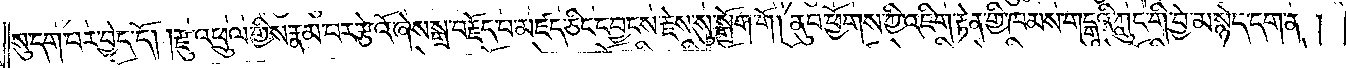སུ་དག་པར་བྱེད་དོ། །རྫུ་འཕྲུལ་གྱིས་རྣམ་པར་རྩེའོ་ཞེས་སྒྲ་བརྗོད་པ་མཛད་ཅིང་དབྱངས་རྗེས་སུ་སྒྲོག་གོ །ནུབ་ཕྱོགས་ཀྱི་འཇིག་རྟེན་གྱི་ཁམས་གངྒཱའི་ཀླུང་གི་བྱེ་མ་སྙེད་དག་ན།
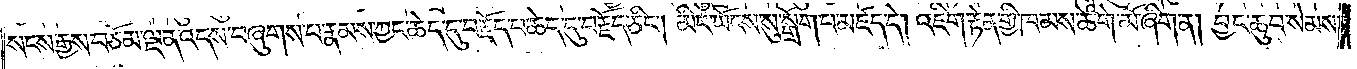སངས་རྒྱས་བཅོམ་ལྡན་འདས་བཞུགས་པ་རྣམས་ཀྱང་ཆེད་དུ་བརྗོད་པ་ཆེད་དུ་བརྗོད་ཅིང༌། མིང་ཡོངས་སུ་སྒྲོག་པ་མཛད་དེ། འཇིག་རྟེན་གྱི་ཁམས་ཆེ་གེ་མོ་ཞིག་ན། བྱང་ཆུབ་སེམས་
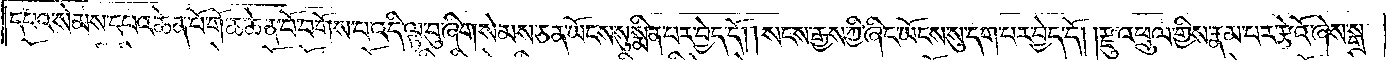དཔའ་སེམས་དཔའ་ཆེན་པོ་གོ་ཆ་ཆེན་པོ་བགོས་པ་འདི་ལྟ་བུ་ཞིག་སེམས་ཅན་ཡོངས་སུ་སྨིན་པར་བྱེད་དོ། །སངས་རྒྱས་ཀྱི་ཞིང་ཡོངས་སུ་དག་པར་བྱེད་དོ། །རྫུ་འཕྲུལ་གྱིས་རྣམ་པར་རྩེའོ་ཞེས་སྒྲ་
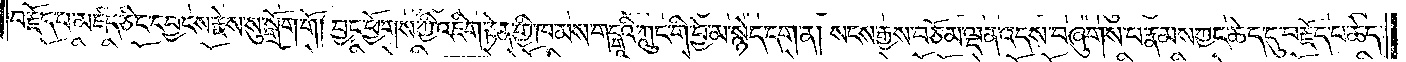བརྗོད་པ་མཛད་ཅིང་དབྱངས་རྗེས་སུ་སྒྲོག་གོ །བྱང་ཕྱོགས་ཀྱི་འཇིག་རྟེན་གྱི་ཁམས་གངྒཱའི་ཀླུང་གི་བྱེ་མ་སྙེད་དག་ན། སངས་རྒྱས་བཅོམ་ལྡན་འདས་བཞུགས་པ་རྣམས་ཀྱང་ཆེད་དུ་བརྗོད་པ་ཆེད་
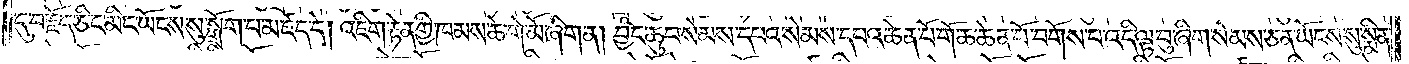དུ་བརྗོད་ཅིང་མིང་ཡོངས་སུ་སྒྲོག་པ་མཛད་དེ། འཇིག་རྟེན་གྱི་ཁམས་ཆེ་གེ་མོ་ཞིག་ན། བྱང་ཆུབ་སེམས་དཔའ་སེམས་དཔའ་ཆེན་པོ་གོ་ཆ་ཆེན་པོ་བགོས་པ་འདི་ལྟ་བུ་ཞིག་སེམས་ཅན་ཡོངས་སུ་སྨིན་
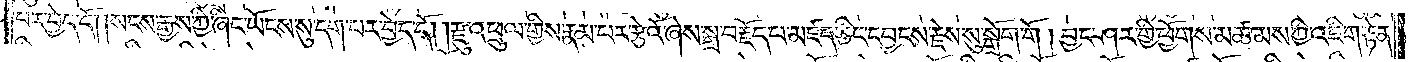པར་བྱེད་དོ། །སངས་རྒྱས་ཀྱི་ཞིང་ཡོངས་སུ་དག་པར་བྱེད་དོ། །རྫུ་འཕྲུལ་གྱིས་རྣམ་པར་རྩེའོ་ཞེས་སྒྲ་བརྗོད་པ་མཛད་ཅིང་དབྱངས་རྫེས་སུ་སྒྲོག་གོ །བྱང་ཤར་གྱི་ཕྱོགས་མཚམས་ཀྱི་འཇིག་རྟེན་
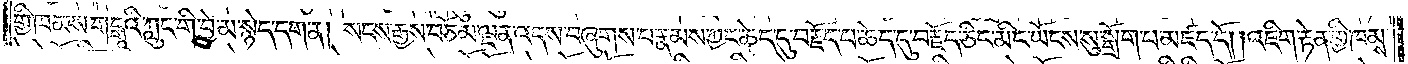གྱི་ཁམས་གངྒཱའི་ཀླུང་གི་བྱེ་མ་སྙེད་དག་ན། སངས་རྒྱས་བཅོམ་ལྡན་འདས་བཞུགས་པ་རྣམས་ཀྱང་ཆེད་དུ་བརྗོད་པ་ཆེད་དུ་བརྗོད་ཅིང་མིང་ཡོངས་སུ་སྒྲོག་པ་མཛད་དོ། །འཇིག་རྟེན་གྱི་ཁམས་
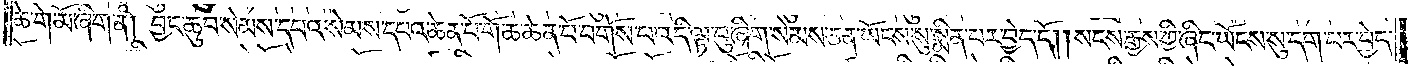ཆེ་གེ་མོ་ཞིག་ན། བྱང་ཆུབ་སེམས་དཔའ་སེམས་དཔའ་ཆེན་པོ་གོ་ཆ་ཆེན་པོ་བགོས་པ་འདི་ལྟ་བུ་ཞིག་སེམས་ཅན་ཡོངས་སུ་སྨིན་པར་བྱེད་དོ། །སངས་རྒྱས་ཀྱི་ཞིང་ཡོངས་སུ་དག་པར་བྱེད་
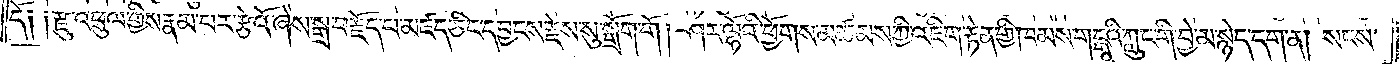དོ༑ ༑རྫུ་འཕྲུལ་གྱིས་རྣམ་པར་རྩེའོ་ཞེས་སྒྲ་བརྗོད་པ་མཛད་ཅིང་དབྱངས་རྗེས་སུ་སྒྲོག་གོ །ཤར་ལྷོའི་ཕྱོགས་མཚམས་ཀྱི་འཇིག་རྟེན་གྱི་ཁམས་གངྒཱའི་ཀླུང་གི་བྱེ་མ་སྙེད་དག་ན། སངས་
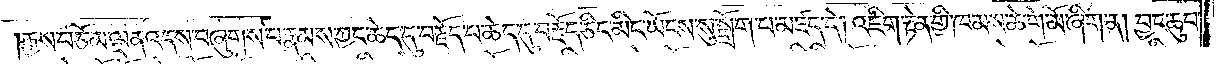རྒྱས་བཅོམ་ལྡན་འདས་བཞུགས་པ་རྣམས་ཀྱང་ཆེད་དུ་བརྗོད་པ་ཆེད་དུ་བརྗོད་ཅིང་མིང་ཡོངས་སུ་སྒྲོག་པ་མཛད་དེ། འཇིག་རྟེན་གྱི་ཁམས་ཆེ་གེ་མོ་ཞིག་ན། བྱང་ཆུབ་
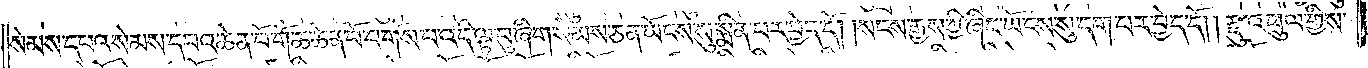སེམས་དཔའ་སེམས་དཔའ་ཆེན་པོ་གོ་ཆ་ཆེན་པོ་བགོས་པ་འདི་ལྟ་བུ་ཞིག་སེམས་ཅན་ཡོངས་སུ་སྨིན་པར་བྱེད་དོ། །སངས་རྒྱས་ཀྱི་ཞིང་ཡོངས་སུ་དག་པར་བྱེད་དོ། །རྫུ་འཕྲུལ་གྱིས་
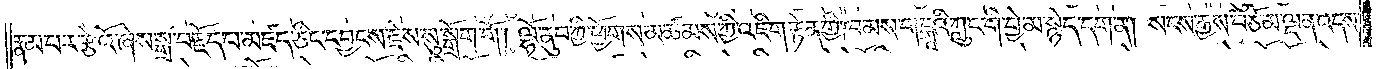རྣམ་པར་རྩེའོ་ཞེས་སྒྲ་བརྗོད་པ་མཛད་ཅིང་དབྱངས་རྗེས་སུ་སྒྲོག་གོ །ལྷོ་ནུབ་ཀྱི་ཕྱོགས་མཚམས་ཀྱི་འཇིག་རྟེན་གྱི་ཁམས་གངྒཱའི་ཀླུང་གི་བྱེ་མ་སྙེད་དག་ན། སངས་རྒྱས་བཅོམ་ལྡན་འདས་
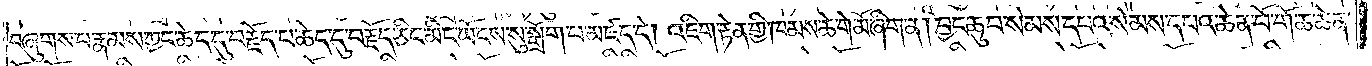བཞུགས་པ་རྣམས་ཀྱང་ཆེད་དུ་བརྗོད་པ་ཆེད་དུ་བརྗོད་ཅིང་མིང་ཡོངས་སུ་སྒྲོག་པ་མཛད་དེ། འཇིག་རྟེན་གྱི་ཁམས་ཆེ་གེ་མོ་ཞིག་ན། བྱང་ཆུབ་སེམས་དཔའ་སེམས་དཔའ་ཆེན་པོ་གོ་ཆ་ཆེན་
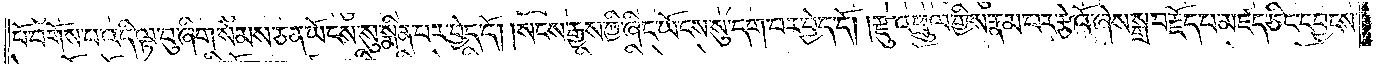པོ་དགོས་པ་འདི་ལྟ་བུ་ཞིག་སེམས་ཅན་ཡོངས་སུ་སྨིན་པར་བྱེད་དོ། །སངས་རྒྱས་ཀྱི་ཞིང་ཡོངས་སུ་དག་པར་བྱེད་དོ། །རྫུ་འཕྲུལ་གྱིས་རྣམ་པར་རྩེའོ་ཞེས་སྒྲ་བརྗོད་པ་མཛད་ཅིང་དབྱངས་
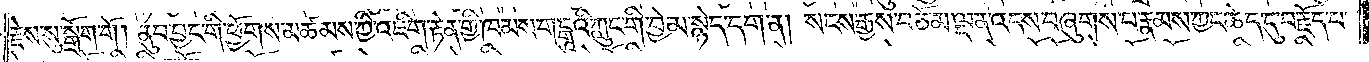རྗེས་སུ་སྒྲོག་གོ །ནུབ་བྱང་གི་ཕྱོགས་མཚམས་ཀྱི་འཇིག་རྟེན་གྱི་ཁམས་གངྒཱའི་ཀླུང་གི་བྱེ་མ་སྙེད་དག་ན། སངས་རྒྱས་བཅོམ་ལྡན་འདས་བཞུགས་པ་རྣམས་ཀྱང་ཆེད་དུ་བརྗོད་པ་
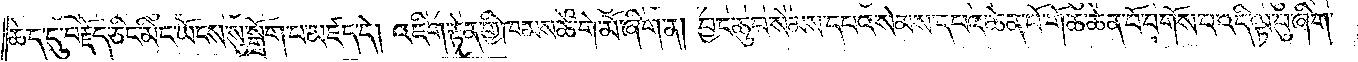ཆེད་དུ་བརྗོད་ཅིང་མིང་ཡོངས་སུ་སྒྲོག་པ་མཛད་དེ། འཇིག་རྟེན་གྱི་ཁམས་ཆེ་གེ་མོ་ཞིག་ན། བྱང་ཆུབ་སེམས་དཔའ་སེམས་དཔའ་ཆེན་པོ་གོ་ཆ་ཆེན་པོ་བགོས་པ་འདི་ལྟ་བུ་ཞིག་
